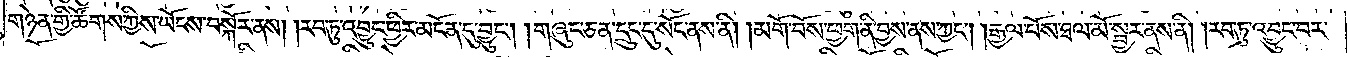གཉེན་གྱི་ཚོགས་ཀྱིས་ཡོངས་བསྐོར་ནས། །རབ་ཏུ་འབྱུང་ཕྱིར་མངོན་དུ་བྱུང༌། །གཞུང་ཅན་དྲུང་དུ་སོང་ནས་ནི། །མགོ་བོས་ཕྱག་ནི་བྱས་ནས་ཀྱང༌། །རྒྱལ་པོས་ཐལ་མོ་སྦྱར་ནས་ནི། །རབ་ཏུ་འབྱུང་བར་
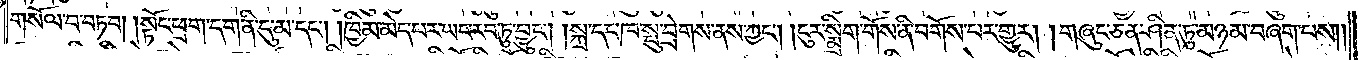གསོལ་བ་བཏབ། །སྟོང་ཕྲག་དག་ནི་དུ་མ་དང༌། །ཁྱིམ་མེད་པར་ཡང་རབ་ཏུ་བྱུང༌། །སྐྲ་དང་ཁ་སྤུ་བྲེགས་ནས་ཀྱང༌། །ངུར་སྨྲིག་གོས་ནི་བགོས་པར་གྱུར། །གཞུང་ཅན་ཤིན་ཏུ་མཉམ་བཞག་པས༎
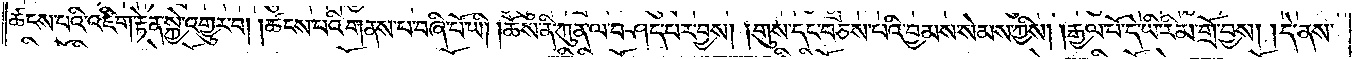ཚངས་པའི་འཇིག་རྟེན་སྐྱེ་འགྱུར་བ། །ཚངས་པའི་གནས་པ་བཞི་པོ་ཡི། །ཆོས་ནི་ཀུན་ལ་བཤད་པར་བྱས། །གུས་དང་བཅས་པའི་བྱམས་སེམས་ཀྱིས། །རྒྱལ་པོ་དེ་ཡི་རིམ་གྲོ་བྱས། །དེ་ནས་
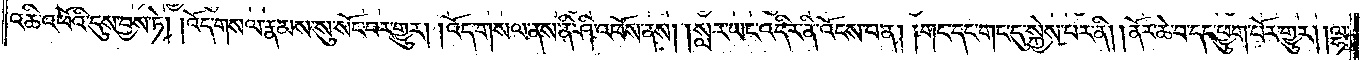འཆི་འཕོའི་དུས་བྱས་ཏེ། །འོད་གསལ་རྣམས་སུ་སོང་བར་གྱུར། །འོད་གསལ་ནས་ནི་ཤི་འཕོས་ནས། །སླར་ཡང་འདིར་ནི་འོངས་པ་ན། །གང་དང་གང་དུ་སྐྱེས་པར་ནི། །ནོར་ཆེ་བ་དང་ཕྱུག་པོར་གྱུར། །ལྷ་
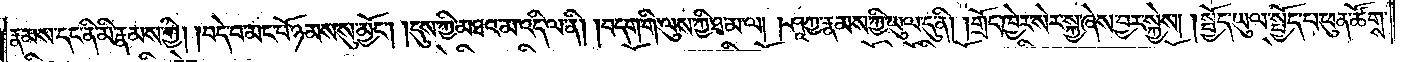རྣམས་དང་ནི་མི་རྣམས་ཀྱི། །བདེ་བ་མང་པོ་ཉམས་སུ་མྱོང༌། །དུས་ཀྱི་མཐའ་མ་འདི་ལ་ནི། །བདག་གི་ལུས་ཀྱི་ཐ་མ་ལ། །ཤཱཀྱ་རྣམས་ཀྱི་ཡུལ་དུ་ནི། །གྲོང་ཁྱེར་སེར་སྐྱ་ཞེས་བྱར་སྐྱེས། །སྤྱོད་ཡུལ་སྤྱོད་པ་ཕུན་ཚོགས་
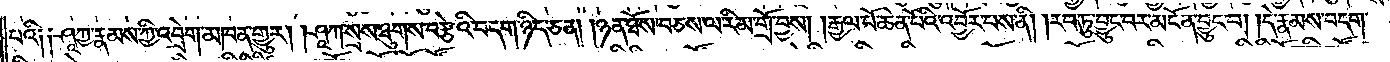པའི། །ཤཱཀྱ་རྣམས་ཀྱི་འབྲེག་མཁན་གྱུར། །ཤཱཀྱ་སྲས་ཐུགས་བརྩེའི་བདག་ཉིད་ཅན། །ཉན་ཐོས་བཅས་ལ་རིམ་གྲོ་བྱས། །རྒྱལ་པོ་ཆེན་པོའི་འབྱོར་པས་ནི། །རབ་ཏུ་བྱུང་བར་མངོན་བྱུང་བ། །དེ་རྣམས་བདག་
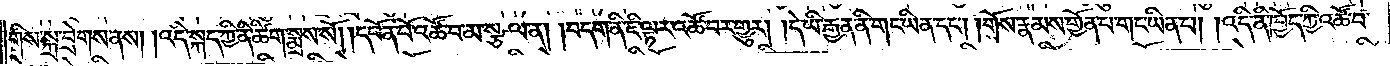གིས་སྐྲ་བྲེགས་ནས། །འདི་སྐད་ཀྱི་ནི་ཚིག་སྨྲས་སོ། །དཔོན་པོ་འཚོ་བ་མ་སྩལ་ན། །བདག་ནི་ཇི་ལྟར་འཚོ་བར་གྱུར། །དེ་ཡི་རྒྱན་ནི་གང་ཡིན་དང༌། །གོས་རྣམས་གྱོན་པ་གང་ཡིན་པ། །འདི་ནི་ཁྱོད་ཀྱི་འཚོ་བ་
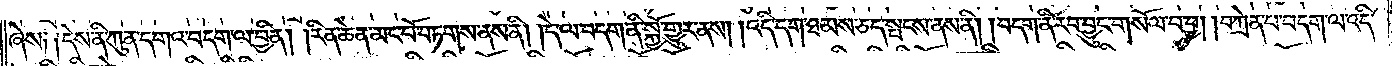ཞེས༑ ༑དེས་ནི་ཀུན་དགའ་བདག་ལ་བྱིན། །རིན་ཆེན་མང་པོ་བཏགས་ནས་ནི། །དེ་ལ་བདག་ནི་སྐྱོ་གྱུར་ནས། །འདི་དག་ཐམས་ཅད་སྤངས་ནས་ནི། །བདག་ནི་རབ་བྱུང་གསོལ་བ་བྱ། །བཀྲེན་པ་བདག་ལ་འདི་
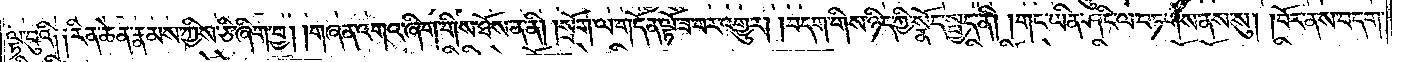ལྟ་བུའི། །རིན་ཆེན་རྣམས་ཀྱིས་ཅི་ཞིག་བྱ། །གཞན་འགའ་ཞིག་གིས་ཐོས་ན་ནི། །སྲོག་ལ་གདོན་ལྟོ་ཟ་བར་འགྱུར། །བདག་གིས་ཉིད་ཀྱི་སྣོད་སྤྱད་ནི། །གང་ཡིན་ཤིང་ལ་བཏགས་ནས་སུ། །བོར་ནས་བདག་
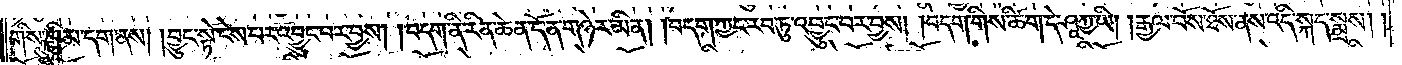གིས་ཁྱིམ་དག་ནས། །བྱུང་སྟེ་ངེས་པར་འབྱུང་བར་བྱས། །བདག་ནི་རིན་ཆེན་དོན་གཉེར་མིན། །བདག་ཀྱང་རབ་ཏུ་འབྱུང་བར་བྱས། །བདག་གིས་ཚིག་དེ་ཤཱཀྱ་ཡི། །རྒྱལ་པོས་ཐོས་ནས་འདི་སྐད་སྨྲས། །
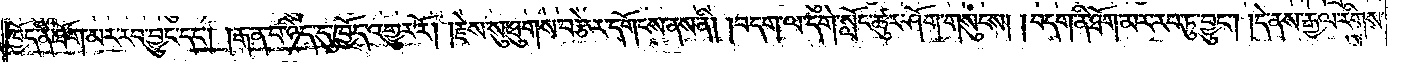ཁྱེད་ནི་ཐོག་མར་རབ་བྱུང་དང༌། །རྒན་པ་ཉིད་དུ་ཁྱོད་འགྱུར་རོ། །རྗེས་སུ་ཐུགས་བརྩེར་དགོངས་ནས་ནི། །བདག་ལ་དགེ་སློང་ཚུར་ཤོག་གསུངས། །བདག་ནི་ཐོག་མར་རབ་ཏུ་བྱུང༌། །དེ་ནས་རྒྱལ་རིགས་
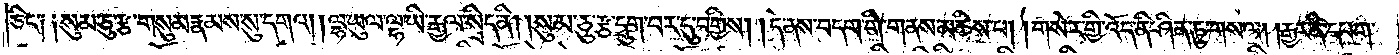ཅིང༌། །སུམ་ཅུ་རྩ་གསུམ་རྣམས་སུ་དགའ། །ལྷ་ཡུལ་ལྷ་ཡི་རྒྱལ་སྲིད་ནི། །སུམ་ཅུ་རྩ་དྲུག་བར་དུ་བགྱིས། །དེ་ནས་བདག་གི་གནས་མཆིས་པ། །གསེར་གྱི་འོད་ནི་ཤིན་ཏུ་གསལ། །རྒྱར་ནི་དཔག་
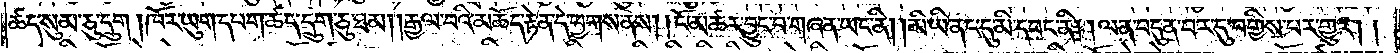ཚད་སུམ་ཅུ་དྲུག །ཁོར་ཡུག་དཔག་ཚད་དྲུག་ཅུ་ཐམ། །རྒྱལ་བའི་མཆོད་རྟེན་དེ་ཕྱགས་ནས། །ངོ་མཚར་བྱུང་བ་གཞན་ཡང་ནི། །མི་ཡི་ནང་དུ་མི་དབང་ནི། །ལན་བདུན་བར་དུ་བགྱིས་པར་གྱུར། །
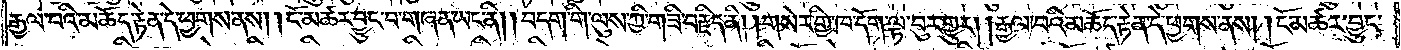རྒྱལ་བའི་མཆོད་རྟེན་དེ་ཕྱགས་ནས། །ངོ་མཚར་བྱུང་བ་གཞན་ཡང་ནི། །བདག་གི་ལུས་ཀྱི་གཟི་བརྗིད་ནི། །གསེར་གྱི་ཁ་དོག་ལྟ་བུར་གྱུར། །རྒྱལ་བའི་མཆོད་རྟེན་དེ་ཕྱགས་ནས་།ངོ་མཚར་བྱུང་
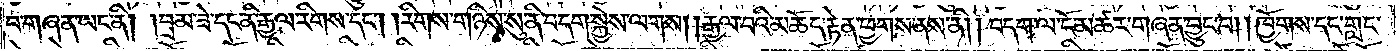བ་གཞན་ཡང་ནི། །བྲམ་ཟེ་དང་ནི་རྒྱལ་རིགས་དང༌། །རིགས་གཉིས་སུ་ནི་བདག་སྐྱེས་ལགས། །རྒྱལ་བའི་མཆོད་རྟེན་ཕྱགས་ནས་ནི། །བདག་ལ་ངོ་མཚར་གཞན་བྱུང་བ། །ཁྱོགས་དང་གླང་
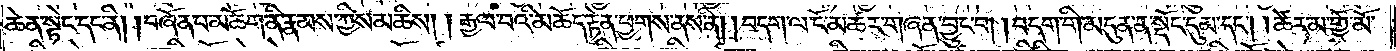ཆེན་སྟེང་དང་ནི། །བཞོན་པ་མཆོག་ནི་རྣམས་ཀྱིས་མཆིས། །རྒྱལ་བའི་མཆོད་རྟེན་ཕྱགས་ནས་ནི། །བདག་ལ་ངོ་མཚར་གཞན་བྱུང་བ། །བདག་གི་མདུན་ན་སྡོང་དུམ་དང༌། །ཚེར་མ་གྱོ་མོ་
